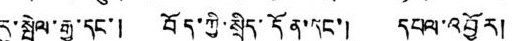རུ་སྤེལ་རྒྱུ་དང་། བོད་ཀྱི་སྲིད་དོན་དང་། དཔལ་འབྱོར།
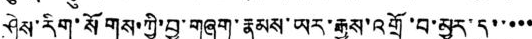ཤེས་རིག་སོགས་ཀྱི་བྱ་གཞག་རྣམས་ཡར་རྒྱས་འགྲོ་བ་མྱུར་དུ་་་་་
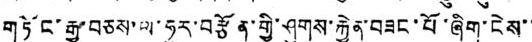གཏོང་རྒྱུ་བཅས་ལ་ཧུར་བརྩོན་གྱི་ཤུགས་རྐྱེན་བཟང་པོ་ཞིག་ངེས་་
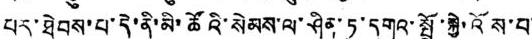པར་ཐེབས་པ་དེ་ནི་མི་ཚོའི་སེམས་ལ་ཤིན་ཏུ་དགའ་སྤྲོ་སྐྱེ་འོས་བ་
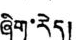ཞིག་རེད།
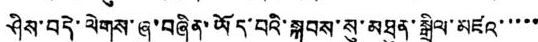ཤིས་བདེ་ལེགས་ཞུ་བཞིན་ཡོད་པའི་སྐབས་སུ་མཐུན་སྒྲིལ་མཛའ་་་་་
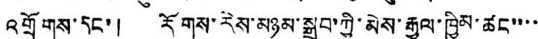འགྲོགས་དང་། རོགས་རེས་མཉམ་སྒྲུབ་ཀྱི་མེས་རྒྱལ་ཁྱིམ་ཚང་་་་
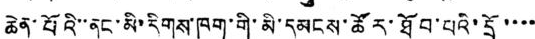ཆེན་པོའི་་ནང་མི་རིགས་ཁག་གི་མི་དམངས་ཚོར་ཐོབ་པའི་དྲོ་་་་
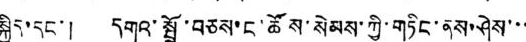སྐྱིད་དང་། དགའ་སྤྲོ་བཅས་ང་ཚོས་སེམས་ཀྱི་གཏིང་ནས་ཤེས་་་
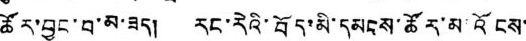ཚོར་བྱུང་བ་མ་ཟད། རང་རེའི་བོད་མི་དམངས་ཚོར་མ་འོངས་
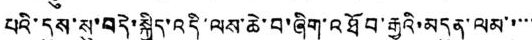པའི་དུས་སུ་བདེ་སྐྱིད་འདི་ལས་ཆེ་བ་ཞིག་འཐོབ་རྒྱུའི་མདུན་ལམ་་་་་
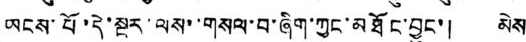ཡངས་པོ་དེ་སྔར་ལས་་གསལ་བ་ཞིག་ཀྱང་མཐོང་བྱུང་། མེས་
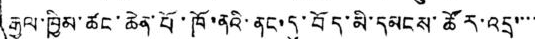རྒྱལ་ཁྱིམ་ཚང་ཆེན་པོ་ཁོ་ནའི་ནང་དུ་བོད་མི་དམངས་ཚོར་འདྲ་་་་
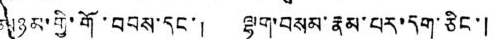མཉམ་གྱི་གོ་བབས་དང་། ལྷག་བསམ་རྣམ་པར་དག་ཅིང་།
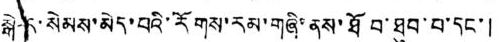སྒེར་སེམས་མེད་པའི་རོགས་རམ་གཞི་ནས་ཐོབ་ཐུབ་བ་དང་།
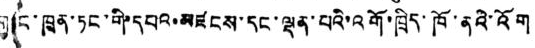གུང་ཁྲན་ཏང་གི་དཔའ་མཛངས་དང་ལྡན་པའི་འགོ་ཁྲིད་ཁོ་ནའི་འོག
